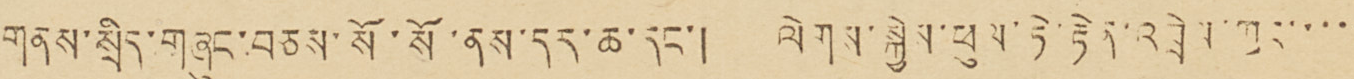གནས་སྲིད་གཞུང་བཅས་སོ་སོ་ནས་དར་ཆ་དང་། ལེགས་སྐྱེས་ཕུས་ཏེ་རྟེན་འབྲེལ་ཀྱང་་་་་་
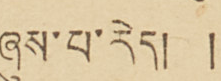ཞུས་པ་རེད། །
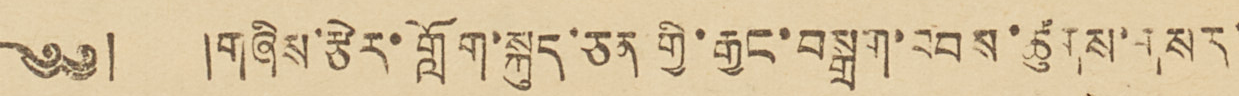༄༅། །གཞིས་རྩེར་གློག་སྐུད་ཅན་གྱི་རྒྱང་བསྒྲག་བབས་ཚུགས་གསར་
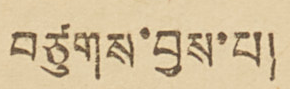བཙུགས་བྱས་པ།
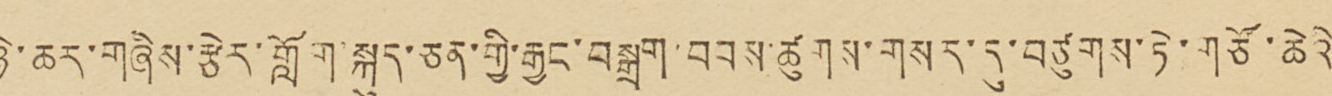ཉེ་ཆར་གཞིས་རྩེར་གློག་སྐུད་ཅན་གྱི་རྒྱང་བསྒྲག་བབས་ཚུགས་གསར་དུ་བཙུགས་ཏེ་གཙོ་ཆེའི་
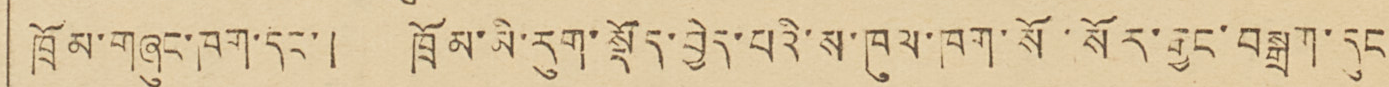ཁྲོམ་གཞུང་ཁག་དང་། ཁྲོམ་མི་རུག་སྡོད་བྱེད་པའི་ས་ཁུལ་ཁག་སོ་སོར་རྒྱང་བསྒྲག་དུང་
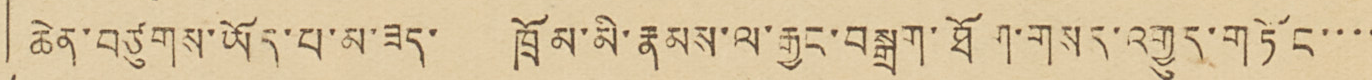ཆེན་བཙུགས་ཡོད་པ་མ་ཟད་ ཁྲོམ་མི་རྣམས་ལ་རྒྱང་བསྒྲག་ཐོག་གསར་འགྱུར་གཏོང་་་་
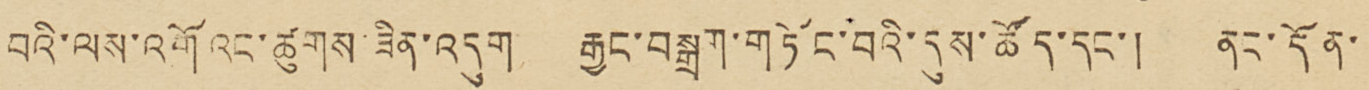བའི་ལས་འགོ འང་ཚུགས་ཟིན་འདུག རྒྱང་བསྒྲག་གཏོང་བའི་དུས་ཚོད་དང་། ནང་དོན་
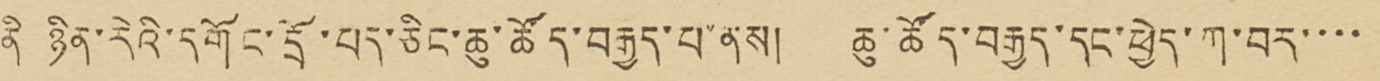ནི ཉིན་རེའི་དགོང་དྲོ་པད་ཅིང་ཆུ་ཚོད་བརྒྱད་པ་ནས། ཆུ་ཚོད་བརྒྱད་དང་ཕྱེད་ཀ་བར་་་་
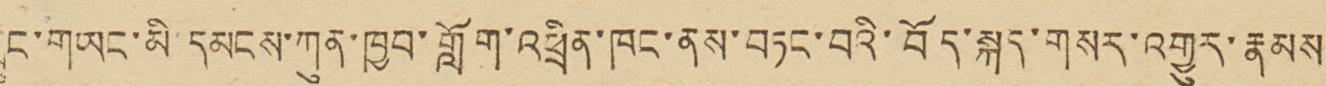ཀྲུང་གཡང་མི་དམངས་ཀུན་ཁྱབ་གློག་འཕྲིན་ཁང་ནས་བཏང་བའི་བོད་སྐད་གསར་འགྱུར་རྣམས་
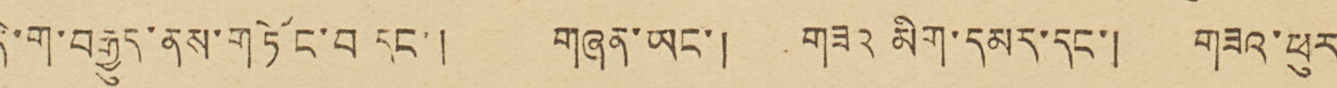དེ་ག་བརྒྱུད་ནས་གཏོང་བ་དང་། གཞན་ཡང་། གཟའ མིག་དམར་དང་། གཟའ་ཕུར་
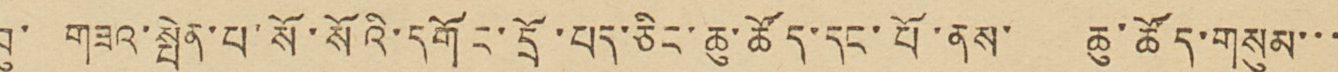བུ་ གཟའ་སྤེན་པ་སོ་སོའི་དགོང་དྲོ་པད་ཅིང་ཆུ་ཚོད་དང་པོ་ནས་ ཆུ་ཚོད་གསུམ་་་་
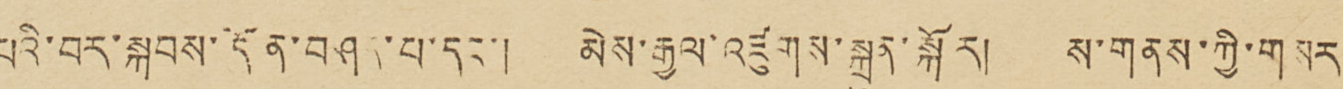པའི་བར་སྐབས་དོན་བཤད་པ་དང་། མེས་རྒྱལ་འཛུགས་སྐྲུན་སྐོར། ས་གནས་ཀྱི་གསར་
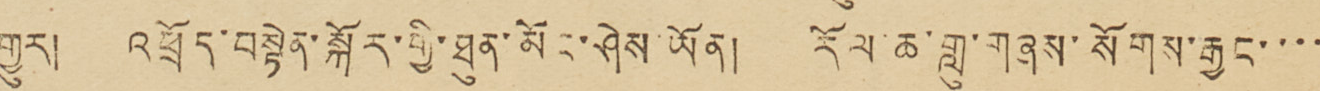འགྱུར། འཕྲོད་བསྟེན་སྐོར་གྱི་ཐུན་མོང་ཤེས་ཡོན། རོལ་ཆ་གླུ་གཞས་སོགས་རྒྱང་་་་་
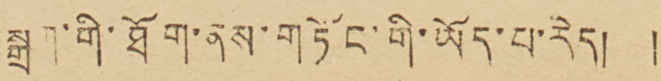བསྒྲག་གི་ཐོག་ནས་གཏོང་གི་ཡོད་པ་རེད། །
